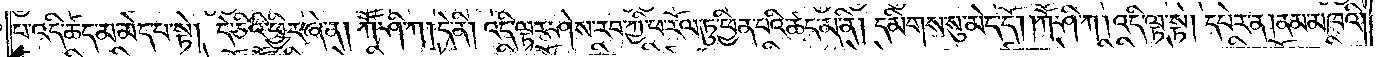པ་འདི་ཚད་མ་མེད་པ་སྟེ། དེ་ཅིའི་ཕྱིར་ཞེ་ན། ཀཽ་ཤི་ཀ །དེ་ནི། འདི་ལྟར་ཤེས་རབ་ཀྱི་ཕ་རོལ་ཏུ་ཕྱིན་པའི་ཚད་མ་ནི། དམིགས་སུ་མེད་དོ། །ཀཽ་ཤི་ཀ །འདི་ལྟ་སྟེ། དཔེར་ན། ནམ་མཁའི་
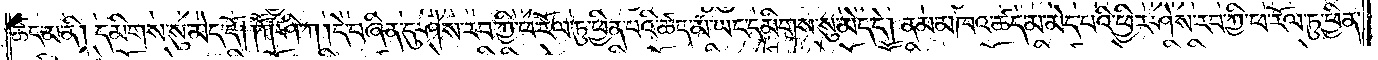ཚད་མ་ནི། དམིགས་སུ་མེད་དོ། །ཀཽ་ཤི་ཀ །དེ་བཞིན་དུ་ཤེས་རབ་ཀྱི་ཕ་རོལ་ཏུ་ཕྱིན་པའི་ཚད་མ་ཡང་དམིགས་སུ་མེད་དེ། ནམ་མཁའ་ཚད་མ་མེད་པའི་ཕྱིར་ཤེས་རབ་ཀྱི་ཕ་རོལ་ཏུ་ཕྱིན་
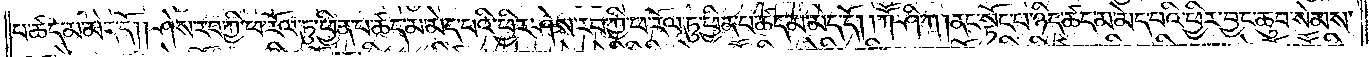པ་ཚད་མ་མེད་དོ། །ཤེས་རབ་ཀྱི་ཕ་རོལ་ཏུ་ཕྱིན་པ་ཚད་མ་མེད་པའི་ཕྱིར་ཤེས་རབ་ཀྱི་ཕ་རོལ་ཏུ་ཕྱིན་པ་ཚད་མ་མེད་དོ། །ཀཽ་ཤི་ཀ །ནང་སྟོང་པ་ཉིད་ཚད་མ་མེད་པའི་ཕྱིར་བྱང་ཆུབ་སེམས་
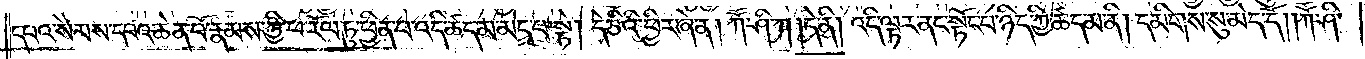དཔའ་སེམས་དཔའ་ཆེན་པོ་རྣམས་ཀྱི་ཕ་རོལ་ཏུ་ཕྱིན་པ་འདི་ཚད་མ་མེད་པ་སྟེ། དེ་ཅིའི་ཕྱིར་ཞེ་ན། ཀཽ་ཤི་ཀ །དེ་ནི། འདི་ལྟར་ནང་སྟོང་པ་ཉིད་ཀྱི་ཚད་མ་ནི། དམིགས་སུ་མེད་དོ། །ཀཽ་ཤི་
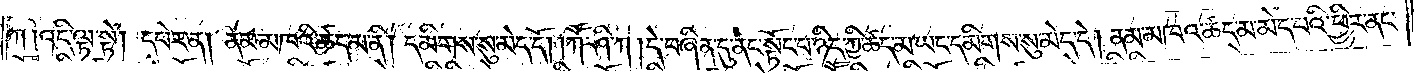ཀ །འདི་ལྟ་སྟེ། དཔེར་ན། ནམ་མཁའི་ཚད་མ་ནི། དམིགས་སུ་མེད་དོ། །ཀཽ་ཤི་ཀ །དེ་བཞིན་དུ་ནང་སྟོང་པ་ཉིད་ཀྱི་ཚད་མ་ཡང་དམིགས་སུ་མེད་དེ། ནམ་མཁའ་ཚད་མ་མེད་པའི་ཕྱིར་ནང་
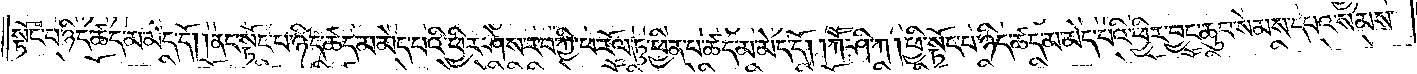སྟོང་པ་ཉིད་ཚད་མ་མེད་དོ། །ནང་སྟོང་པ་ཉིད་ཚད་མ་མེད་པའི་ཕྱིར་ཤེས་རབ་ཀྱི་ཕ་རོལ་ཏུ་ཕྱིན་པ་ཚད་མ་མེད་དོ། །ཀཽ་ཤི་ཀ །ཕྱི་སྟོང་པ་ཉིད་ཚད་མ་མེད་པའི་ཕྱིར་བྱང་ཆུབ་སེམས་དཔའ་སེམས་
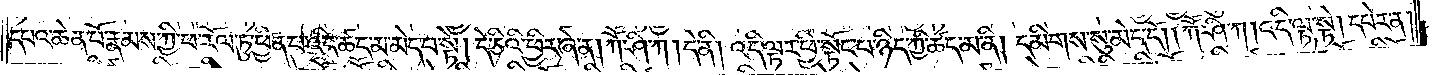དཔའ་ཆེན་པོ་རྣམས་ཀྱི་ཕ་རོལ་ཏུ་ཕྱིན་པ་འདི་ཚད་མ་མེད་པ་སྟེ། དེ་ཅིའི་ཕྱིར་ཞེ་ན། ཀཽ་ཤི་ཀ །དེ་ནི། འདི་ལྟར་ཕྱི་སྟོང་པ་ཉིད་ཀྱི་ཚད་མ་ནི། དམིགས་སུ་མེད་དོ། །ཀཽ་ཤི་ཀ །འདི་ལྟ་སྟེ། དཔེར་ན།
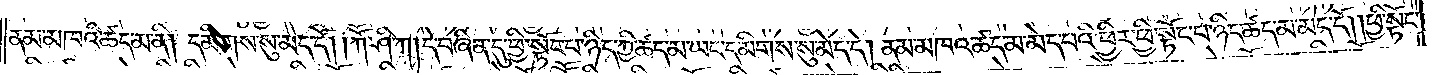ནམ་མཁའི་ཚད་མ་ནི། དམིགས་སུ་མེད་དོ། །ཀཽ་ཤི་ཀ །དེ་བཞིན་དུ་ཕྱི་སྟོང་པ་ཉིད་ཀྱི་ཚད་མ་ཡང་དམིགས་སུ་མེད་དེ། ནམ་མཁའ་ཚད་མ་མེད་པའི་ཕྱིར་ཕྱི་སྟོང་པ་ཉིད་ཚད་མ་མེད་དོ། །ཕྱི་སྟོང་
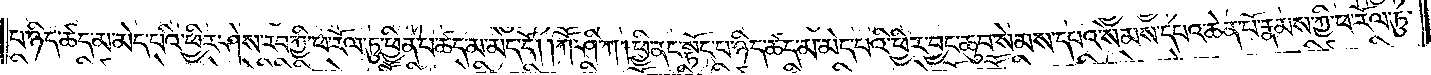པ་ཉིད་ཚད་མ་མེད་པའི་ཕྱིར་ཤེས་རབ་ཀྱི་ཕ་རོལ་ཏུ་ཕྱིན་པ་ཚད་མ་མེད་དོ། །ཀཽ་ཤི་ཀ །ཕྱི་ནང་སྟོང་པ་ཉིད་ཚད་མ་མེད་པའི་ཕྱིར་བྱང་ཆུབ་སེམས་དཔའ་སེམས་དཔའ་ཆེན་པོ་རྣམས་ཀྱི་ཕ་རོལ་ཏུ་
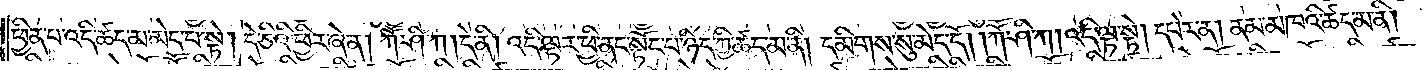ཕྱིན་པ་འདི་ཚད་མ་མེད་པ་སྟེ། དེ་ཅིའི་ཕྱིར་ཞེ་ན། ཀཽ་ཤི་ཀ །དེ་ནི། འདི་ལྟར་ཕྱི་ནང་སྟོང་པ་ཉིད་ཀྱི་ཚད་མ་ནི། དམིགས་སུ་མེད་དོ། །ཀཽ་ཤི་ཀ །འདི་ལྟ་སྟེ། དཔེར་ན། ནམ་མཁའི་ཚད་མ་ནི།
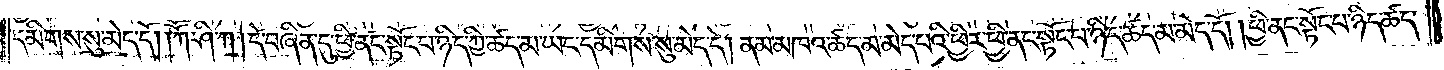དམིགས་སུ་མེད་དོ། །ཀཽ་ཤི་ཀ །དེ་བཞིན་དུ་ཕྱི་ནང་སྟོང་པ་ཉིད་ཀྱི་ཚད་མ་ཡང་དམིགས་སུ་མེད་དེ། ནམ་མཁའ་ཚད་མ་མེད་པའི་ཕྱིར་ཕྱི་ནང་སྟོང་པ་ཉིད་ཚད་མ་མེད་དོ། །ཕྱི་ནང་སྟོང་པ་ཉིད་ཚད་
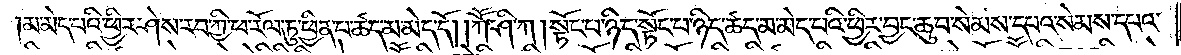མ་མེད་པའི་ཕྱིར་ཤེས་རབ་ཀྱི་ཕ་རོལ་ཏུ་ཕྱིན་པ་ཚད་མ་མེད་དོ། །ཀཽ་ཤི་ཀ །སྟོང་པ་ཉིད་སྟོང་པ་ཉིད་ཚད་མ་མེད་པའི་ཕྱིར་བྱང་ཆུབ་སེམས་དཔའ་སེམས་དཔའ་
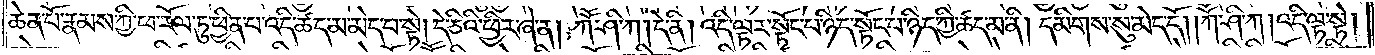ཆེན་པོ་རྣམས་ཀྱི་ཕ་རོལ་ཏུ་ཕྱིན་པ་འདི་ཚད་མ་མེད་པ་སྟེ། དེ་ཅིའི་ཕྱིར་ཞེ་ན། ཀཽ་ཤི་ཀ །དེ་ནི། འདི་ལྟར་སྟོང་པ་ཉིད་སྟོང་པ་ཉིད་ཀྱི་ཚད་མ་ནི། དམིགས་སུ་མེད་དོ། །ཀཽ་ཤི་ཀ །འདི་ལྟ་སྟེ།
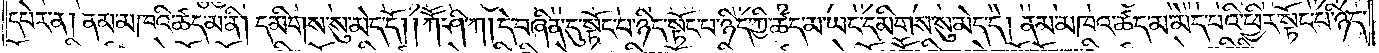དཔེར་ན། ནམ་མཁའི་ཚད་མ་ནི། དམིགས་སུ་མེད་དོ། །ཀཽ་ཤི་ཀ །དེ་བཞིན་དུ་སྟོང་པ་ཉིད་སྟོང་པ་ཉིད་ཀྱི་ཚད་མ་ཡང་དམིགས་སུ་མེད་དེ། ནམ་མཁའ་ཚད་མ་མེད་པའི་ཕྱིར་སྟོང་པ་ཉིད་
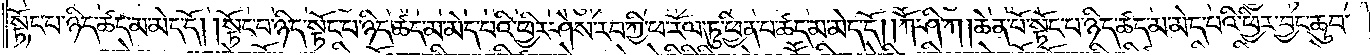སྟོང་པ་ཉིད་ཚད་མ་མེད་དོ། །སྟོང་པ་ཉིད་སྟོང་པ་ཉིད་ཚད་མ་མེད་པའི་ཕྱིར་ཤེས་རབ་ཀྱི་ཕ་རོལ་ཏུ་ཕྱིན་པ་ཚད་མ་མེད་དོ། །ཀཽ་ཤི་ཀ །ཆེན་པོ་སྟོང་པ་ཉིད་ཚད་མ་མེད་པའི་ཕྱིར་བྱང་ཆུབ་
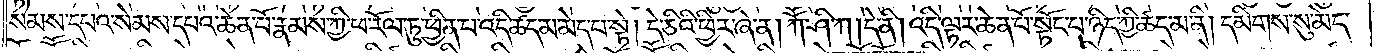སེམས་དཔའ་སེམས་དཔའ་ཆེན་པོ་རྣམས་ཀྱི་ཕ་རོལ་ཏུ་ཕྱིན་པ་འདི་ཚད་མ་མེད་པ་སྟེ། དེ་ཅིའི་ཕྱིར་ཞེ་ན། ཀཽ་ཤི་ཀ །དེ་ནི། འདི་ལྟར་ཆེན་པོ་སྟོང་པ་ཉིད་ཀྱི་ཚད་མ་ནི། དམིགས་སུ་མེད་
